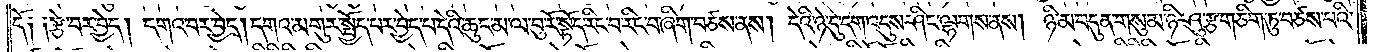དོ༑ ༑རྩེ་བར་བྱེད། དགའ་བར་བྱེད། དགའ་མགུར་སྤྱོད་པར་བྱེད་པ་དེའི་ཆུང་མ་ལ་བུ་རོ་སྟོད་རིང་བ་རིང་བ་ཞིག་བཙས་ནས། དེའི་ཉེ་དུ་དག་འདུས་ཤིང་ལྷགས་ནས། ཉི་མ་བདུན་གསུམ་ཉི་ཤུ་རྩ་གཅིག་ཏུ་བཙས་པའི་
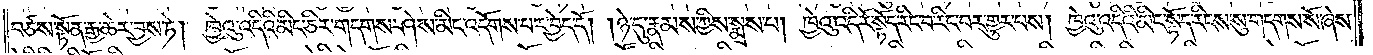བཙས་སྟོན་རྒྱ་ཆེར་བྱས་ཏེ། ཁྱེའུ་འདིའི་མིང་ཅིར་གདགས་ཤེས་མིང་འདོགས་པར་བྱེད་དོ། །ཉེ་དུ་རྣམས་ཀྱིས་སྨྲས་པ། ཁྱེའུ་འདི་རོ་སྟོད་རིང་བ་རིང་བར་གྱུར་པས། ཁྱེའུ་འདིའི་མིང་སྟོད་རིངས་སུ་གདགས་སོ་ཞེས་
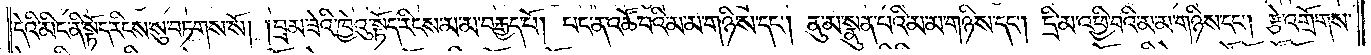དེའི་མིང་ནི་སྟོད་རིངས་སུ་བཏགས་སོ། །བྲམ་ཟེའི་ཁྱེའུ་སྟོད་རིངས་མ་མ་བརྒྱད་པོ། པད་ན་འཚོ་བའི་མ་མ་གཉིས་དང༌། ནུ་མ་སྣུན་པའི་མ་མ་གཉིས་དང༌། དྲི་མ་འཕྱི་བའི་མ་མ་གཉིས་དང༌། རྩེ་འགྲོགས་
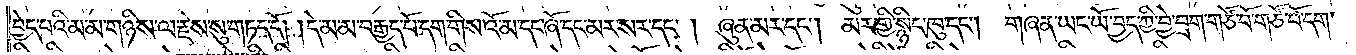བྱེད་པའི་མ་མ་གཉིས་ལ་རྗེས་སུ་གཏད་དོ། །དེ་མ་མ་བརྒྱད་པོ་དག་གིས་འོ་མ་དང་ཞོ་དང་མར་སར་དང༌། ཞུན་མར་དང༌། མར་གྱི་སྙིང་ཁུ་དང༌། གཞན་ཡང་ཡོ་བྱད་ཀྱི་བྱེ་བྲག་གཙོ་བོ་གཙོ་བོ་དག་
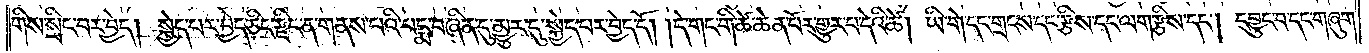གིས་སྲིང་བར་བྱེད། སྐྱེད་པར་བྱེད་ཅིང་རྫིང་ན་གནས་པའི་པདྨ་བཞིན་དུ་མྱུར་དུ་སྐྱེད་པར་བྱེད་དོ། །དེ་གང་གི་ཚེ་ཆེན་པོར་གྱུར་པ་དེའི་ཚེ། ཡི་གེ་དང་གྲངས་དང་རྩིས་དང་ལག་རྩིས་དང༌། དབྱུང་བ་དང་གཞུག་
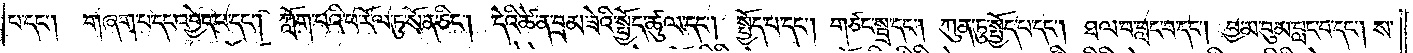པ་དང༌།གཞག་པ་དང་འབྱེད་པ་དང༌། ཀློག་པའི་ཕ་རོལ་ཏུ་སོན་ཅིང༌། དེའི་ཚེ་ན་བྲམ་ཟེའི་སྤྱོད་ཚུལ་དང༌། སྤྱོད་པ་དང༌། གཙང་སྦྲ་དང༌། ཀུན་ཏུ་སྤྱོད་པ་དང༌། ཐལ་བ་བླང་བ་དང༌། བྱ་མ་བུམ་བླང་བ་དང༌། ས་
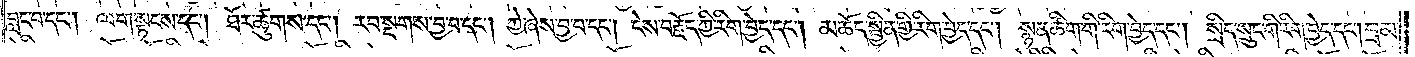བླང་བ་དང༌། ལག་སྟངས་དང༌། ཐོར་ཚུགས་དང༌། རབ་སྔགས་བྱ་བ་དང༌། ཀྱེ་ཞེས་བྱ་བ་དང༌། ངེས་བརྗོད་ཀྱི་རིག་བྱེད་དང༌། མཆོད་སྦྱིན་གྱི་རིག་བྱེད་དང༌། སྙན་ཚིག་གི་རིག་བྱེད་དང༌། སྲིད་སྲུང་གི་རིག་བྱེད་དང༌། བྲམ་
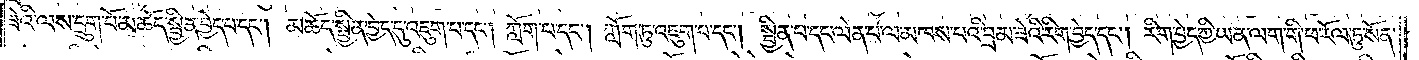ཟེའི་ལས་དྲུག་པོ་མཆོད་སྦྱིན་བྱེད་པ་དང༌། མཆོད་སྦྱིན་བྱེད་དུ་འཇུག་པ་དང༌། ཀློག་པ་དང༌། ཀློག་ཏུ་འཇུག་པ་དང༌། སྦྱིན་པ་དང་ལེན་པ་ལ་མཁས་པའི་བྲམ་ཟེའི་རིག་བྱེད་དང༌། རིག་བྱེད་ཀྱི་ཡན་ལག་གི་ཕ་རོལ་ཏུ་སོན་
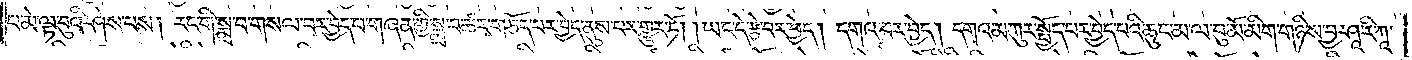བ་མེ་ལྟ་བུའི་ཤེས་པས། རང་གི་སྨྲ་བ་གསལ་བར་བྱེད་པ་གཞན་གྱི་སྨྲ་བ་ཚར་གཅོད་པར་བྱེད་ནུས་པར་གྱུར་ཏོ། །ཡང་དེ་རྩེ་བར་བྱེད། དགའ་བར་བྱེད། དགའ་མགུར་སྤྱོད་པར་བྱེད་པའི་ཆུང་མ་ལ་བུ་མོ་མིག་གཉིས་བྱ་ཤཱ་རི་ཀཱ་
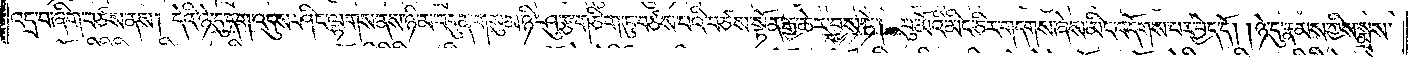འདྲ་བ་ཞིག་བཙས་ནས། དེའི་ཉེ་དུ་དག་འདུས་ཤིང་ལྷགས་ནས་ཉི་མ་བདུན་གསུམ་ཉི་ཤུ་རྩ་གཅིག་ཏུ་བཙས་པའི་བཙས་སྟོན་རྒྱ་ཆེར་བྱས་ཏེ། བུ་མོའི་མིང་ཅིར་གདགས་ཞེས་མིང་འདོགས་པར་བྱེད་དོ། །ཉེ་དུ་རྣམས་ཀྱིས་སྨྲས་
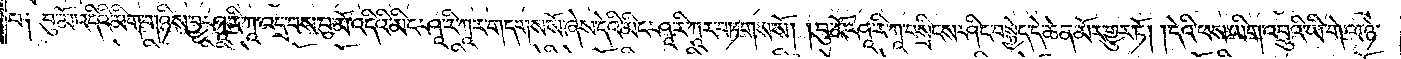པ༏ བུ་མོ་འདིའི་མིག་གཉིས་བྱ་ཤཱ་རི་ཀཱ་འདྲ་བས་བུ་མོ་འདིའི་མིང་ཤཱ་རི་ཀཱར་གདགས་སོ་ཞེས་དེའི་མིང་ཤཱ་རི་ཀཱ་ར་བཏགས་སོ། །བུ་མོ་ཤཱ་རི་ཀཱ་བསྲིངས་ཤིང་བསྐྱེད་དེ་ཆེན་མོར་གྱུར་ཏོ། །དེའི་ཕས་ཡིག་འབྲུའི་ཡི་གེ་ལ་ཉེ་
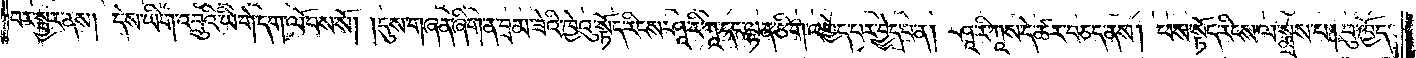བར་སྦྱར་ནས། དེས་ཡིག་འབྲུའི་ཡི་གེ་དག་ལོབས་སོ། །དུས་གཞན་ཞིག་ན་བྲམ་ཟེའི་ཁྱེའུ་སྟོད་རིངས་ཤཱ་རི་ཀཱ་དང་ལྷན་ཅིག་འགྱེད་པར་བྱེད་པ་ན། ཤཱ་རི་ཀཱས་དེ་ཚར་བཅད་ནས། ཕས་སྟོད་རིངས་ལ་སྨྲས་པ། བུ་ཁྱོད་
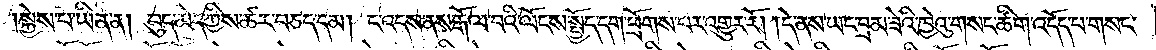སྐྱེས་པ་ཡིན་ན། བུད་མེད་ཀྱིས་ཚར་བཅད་དམ། ང་འདས་ནས་རྒོལ་བའི་ལོངས་སྤྱོད་དག་ཕྲོགས་པར་འགྱུར་རོ། །དེ་ནས་ཡང་བྲམ་ཟེའི་ཁྱེའུ་གསང་ཚིག་འདོད་པ་གསང་
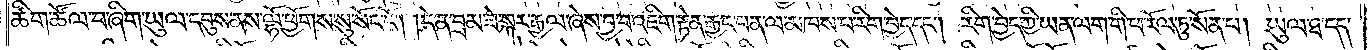ཚིག་ཚོལ་བ་ཞིག་ཡུལ་དབུས་ནས་ལྷོ་ཕྱོགས་སུ་སོང་ངོ༌། །དེ་ན་བྲམ་ཟེ་སྐར་རྒྱལ་ཞེས་བྱ་བ་འཇིག་རྟེན་རྒྱང་པ་ན་ལ་མཁས་པ་རིག་བྱེད་དང༌། རིག་བྱེད་ཀྱི་ཡན་ལག་གི་ཕ་རོལ་ཏུ་སོན་པ། ཡུལ་ཐ་དད་
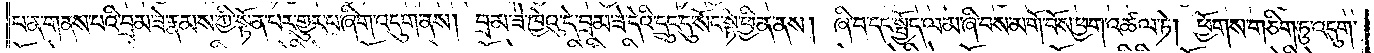པ་ན་གནས་པའི་བྲམ་ཟེ་རྣམས་ཀྱི་སྟོན་པར་གྱུར་པ་ཞིག་འདུག་ནས། བྲམ་ཟེ་ཁྱེའུ་དེ་བྲམ་ཟེ་དེའི་དྲུང་དུ་སོང་སྟེ་ཕྱིན་ནས། ཞི་བ་དང་སྤྱོད་ལམ་ཞི་བས་མགོ་བོས་ཕྱག་འཚལ་ཏེ། ཕྱོགས་གཅིག་ཏུ་འདུག་
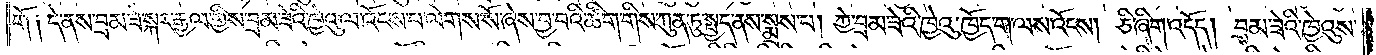གོ༑ དེ་ནས་བྲམ་ཟེ་སྐར་རྒྱལ་གྱིས་བྲམ་ཟེའི་ཁྱེའུ་ལ་འོངས་པ་ལེགས་སོ་ཞེས་བྱ་བའི་ཚིག་གིས་ཀུན་ཏུ་སྤྱད་ནས་སྨྲས་པ། ཀྱེ་བྲམ་ཟེའི་ཁྱེའུ་ཁྱོད་ག་ལས་འོངས། ཅི་ཞིག་འདོད། བྲམ་ཟེའི་ཁྱེའུས་
